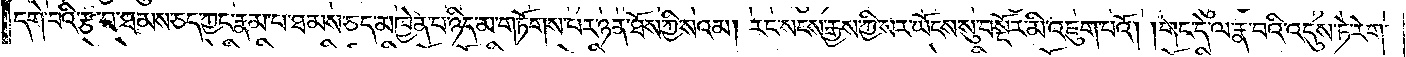དགེ་བའི་རྩ་བ་ཐམས་ཅད་ཀྱང་རྣམ་པ་ཐམས་ཅད་མཁྱེན་པ་ཉིད་མ་གཏོགས་པར་ཉན་ཐོས་ཀྱི་སའམ། རང་སངས་རྒྱས་ཀྱི་སར་ཡོངས་སུ་བསྔོར་མི་འཇུག་པའོ། །གང་དེ་ལ་རྣ་བའི་འདུས་ཏེ་རེག་
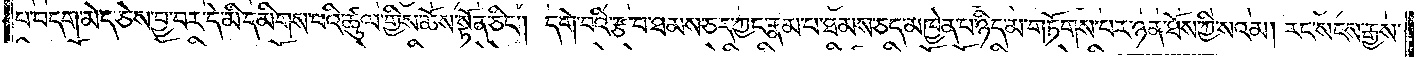པ་བདག་མེད་ཅེས་བྱ་བར་དེ་མི་དམིགས་པའི་ཚུལ་གྱིས་ཆོས་སྟོན་ཅིང༌། དགེ་བའི་རྩ་བ་ཐམས་ཅད་ཀྱང་རྣམ་པ་ཐམས་ཅད་མཁྱེན་པ་ཉིད་མ་གཏོགས་པར་ཉན་ཐོས་ཀྱི་སའམ། རང་སངས་རྒྱས་
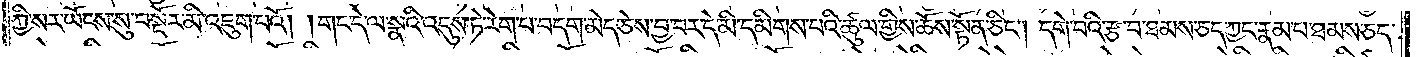ཀྱི་སར་ཡོངས་སུ་བསྔོར་མི་འཇུག་པའོ། །གང་དེ་ལ་སྣའི་འདུས་ཏེ་རེག་པ་བདག་མེད་ཅེས་བྱ་བར་དེ་མི་དམིགས་པའི་ཚུལ་གྱིས་ཆོས་སྟོན་ཅིང༌། དགེ་བའི་རྩ་བ་ཐམས་ཅད་ཀྱང་རྣམ་པ་ཐམས་ཅད་
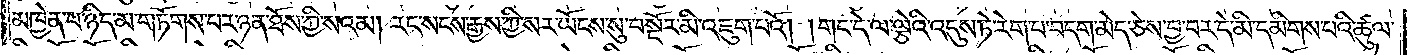མཁྱེན་པ་ཉིད་མ་གཏོགས་པར་ཉན་ཐོས་ཀྱི་སའམ། རང་སངས་རྒྱས་ཀྱི་སར་ཡོངས་སུ་བསྔོར་མི་འཇུག་པའོ། །གང་དེ་ལ་ལྕེའི་འདུས་ཏེ་རེག་པ་བདག་མེད་ཅེས་བྱ་བར་དེ་མི་དམིགས་པའི་ཚུལ་
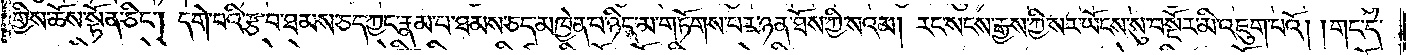གྱིས་ཆོས་སྟོན་ཅིང༌། དགེ་བའི་རྩ་བ་ཐམས་ཅད་ཀྱང་རྣམ་པ་ཐམས་ཅད་མཁྱེན་པ་ཉིད་མ་གཏོགས་པར་ཉན་ཐོས་ཀྱི་སའམ། རང་སངས་རྒྱས་ཀྱི་སར་ཡོངས་སུ་བསྔོར་མི་འཇུག་པའོ། །གང་དེ་
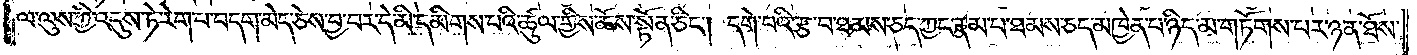ལ་ལུས་ཀྱི་འདུས་ཏེ་རེག་པ་བདག་མེད་ཅེས་བྱ་བར་དེ་མི་དམིགས་པའི་ཚུལ་གྱིས་ཆོས་སྟོན་ཅིང༌། དགེ་བའི་རྩ་བ་ཐམས་ཅད་ཀྱང་རྣམ་པ་ཐམས་ཅད་མཁྱེན་པ་ཉིད་མ་གཏོགས་པར་ཉན་ཐོས་
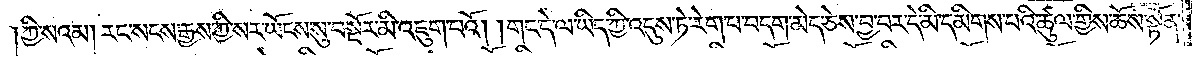།ཀྱི་སའམ། རང་སངས་རྒྱས་ཀྱི་སར་ཡོངས་སུ་བསྔོར་མི་འཇུག་པའོ། །གང་དེ་ལ་ཡིད་ཀྱི་འདུས་ཏེ་རེག་པ་བདག་མེད་ཅེས་བྱ་བར་དེ་མི་དམིགས་པའི་ཚུལ་གྱིས་ཆོས་སྟོན་
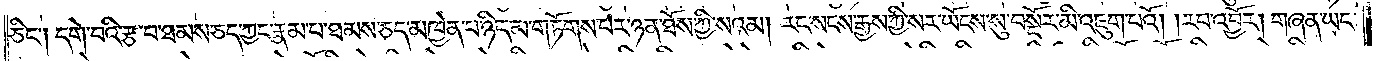ཅིང༌། དགེ་བའི་རྩ་བ་ཐམས་ཅད་ཀྱང་རྣམ་པ་ཐམས་ཅད་མཁྱེན་པ་ཉིད་མ་གཏོགས་པར་ཉན་ཐོས་ཀྱི་སའམ། རང་སངས་རྒྱས་ཀྱི་སར་ཡོངས་སུ་བསྔོར་མི་འཇུག་པའོ། །རབ་འབྱོར། གཞན་ཡང་
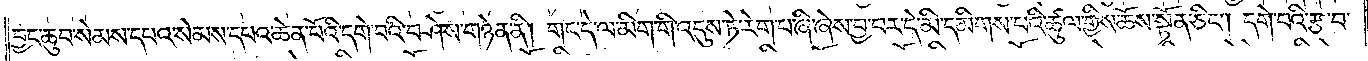བྱང་ཆུབ་སེམས་དཔའ་སེམས་དཔའ་ཆེན་པོའི་དགེ་བའི་བཤེས་གཉེན་ནི། གང་དེ་ལ་མིག་གི་འདུས་ཏེ་རེག་པ་ཞི་ཞེས་བྱ་བར་དེ་མི་དམིགས་པའི་ཚུལ་གྱིས་ཆོས་སྟོན་ཅིང༌། དགེ་བའི་རྩ་བ་
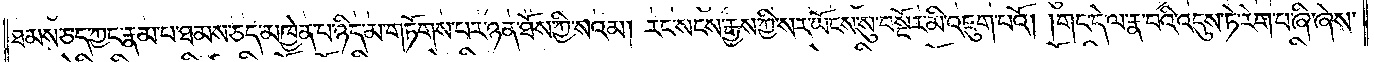ཐམས་ཅད་ཀྱང་རྣམ་པ་ཐམས་ཅད་མཁྱེན་པ་ཉིད་མ་གཏོགས་པར་ཉན་ཐོས་ཀྱི་སའམ། རང་སངས་རྒྱས་ཀྱི་སར་ཡོངས་སུ་བསྔོར་མི་འཇུག་པའོ། །གང་དེ་ལ་རྣ་བའི་འདུས་ཏེ་རེག་པ་ཞི་ཞེས་
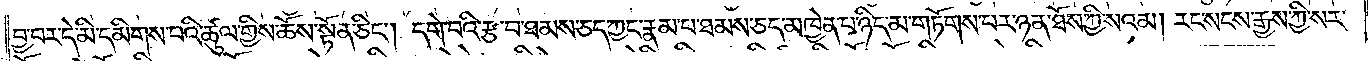བྱ་བར་དེ་མི་དམིགས་པའི་ཚུལ་གྱིས་ཆོས་སྟོན་ཅིང༌། དགེ་བའི་རྩ་བ་ཐམས་ཅད་ཀྱང་རྣམ་པ་ཐམས་ཅད་མཁྱེན་པ་ཉིད་མ་གཏོགས་པར་ཉན་ཐོས་ཀྱི་སའམ། རང་སངས་རྒྱས་ཀྱི་སར་
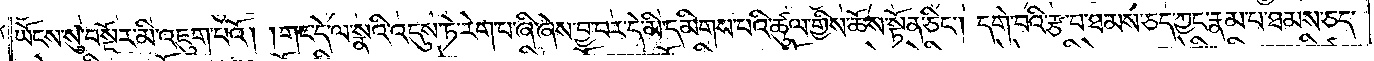ཡོངས་སུ་བསྔོར་མི་འཇུག་པའོ། །གང་དེ་ལ་སྣའི་འདུས་ཏེ་རེག་པ་ཞི་ཞེས་བྱ་བར་དེ་མི་དམིགས་པའི་ཚུལ་གྱིས་ཆོས་སྟོན་ཅིང༌། དགེ་བའི་རྩ་བ་ཐམས་ཅད་ཀྱང་རྣམ་པ་ཐམས་ཅད་
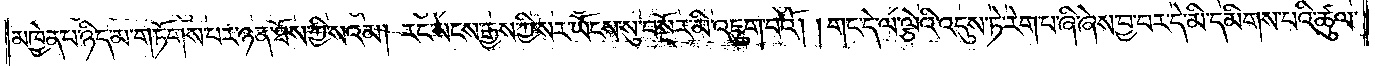མཁྱེན་པ་ཉིད་མ་གཏོགས་པར་ཉན་ཐོས་ཀྱི་སའམ། རང་སངས་རྒྱས་ཀྱི་སར་ཡོངས་སུ་བསྔོར་མི་འཇུག་པའོ། །གང་དེ་ལ་ལྕེའི་འདུས་ཏེ་རེག་པ་ཞི་ཞེས་བྱ་བར་དེ་མི་དམིགས་པའི་ཚུལ་
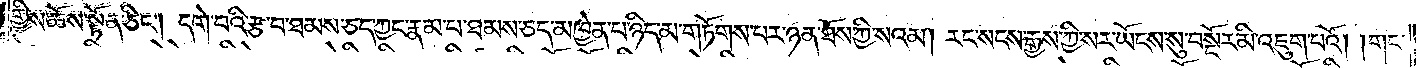གྱིས་ཆོས་སྟོན་ཅིང༌། དགེ་བའི་རྩ་བ་ཐམས་ཅད་ཀྱང་རྣམ་པ་ཐམས་ཅད་མཁྱེན་པ་ཉིད་མ་གཏོགས་པར་ཉན་ཐོས་ཀྱི་སའམ། རང་སངས་རྒྱས་ཀྱི་སར་ཡོངས་སུ་བསྔོར་མི་འཇུག་པའོ། །གང་
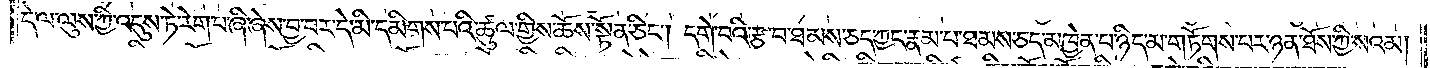དེ་ལ་ལུས་ཀྱི་འདུས་ཏེ་རེག་པ་ཞི་ཞེས་བྱ་བར་དེ་མི་དམིགས་པའི་ཚུལ་གྱིས་ཆོས་སྟོན་ཅིང༌། དགེ་བའི་རྩ་བ་ཐམས་ཅད་ཀྱང་རྣམ་པ་ཐམས་ཅད་མཁྱེན་པ་ཉིད་མ་གཏོགས་པར་ཉན་ཐོས་ཀྱི་སའམ།
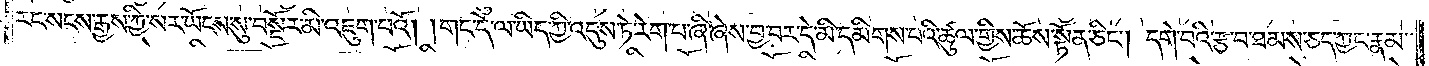རང་སངས་རྒྱས་ཀྱི་སར་ཡོངས་སུ་བསྔོར་མི་འཇུག་པའོ། །གང་དེ་ལ་ཡིད་ཀྱི་འདུས་ཏེ་རེག་པ་ཞི་ཞེས་བྱ་བར་དེ་མི་དམིགས་པའི་ཚུལ་གྱིས་ཆོས་སྟོན་ཅིང༌། དགེ་བའི་རྩ་བ་ཐམས་ཅད་ཀྱང་རྣམ་
